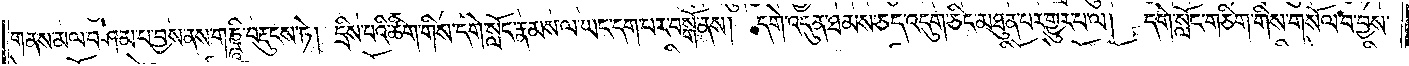གནས་མལ་བཤམ་པ་བྱས་ནས་གཎྜཱི་བརྡུངས་ཏེ། དྲིས་པའི་ཚིག་གིས་དགེ་སློང་རྣམས་ལ་ཡང་དག་པར་བསྒོ་ནས། དགེ་འདུན་ཐམས་ཅད་འདུག་ཅིང་མཐུན་པར་གྱུར་པ་ལ། དགེ་སློང་གཅིག་གིས་གསོལ་བ་བྱས་
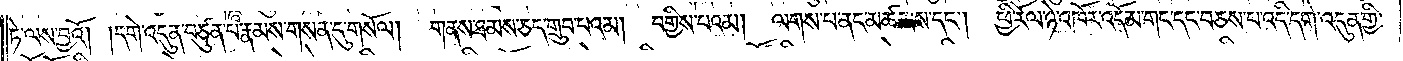ཏེ་ལས་བྱའོ། །དགེ་འདུན་བཙུན་པ་རྣམས་གསན་དུ་གསོལ། གནས་ཐམས་ཅད་གྲུབ་པའམ། བགྱིས་པའམ། ལགས་པ་ནང་མཚམས་དང༌། ཕྱི་རོལ་ཉེ་འཁོར་འདོམ་གང་དང་བཅས་པ་འདི་དགེ་འདུན་གྱི་
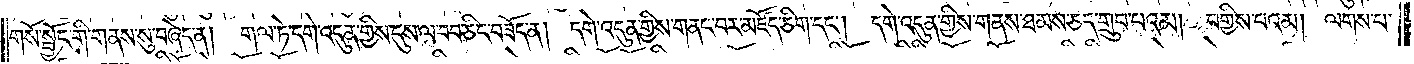གསོ་སྦྱོང་གི་གནས་སུ་བཞེད་ན། གལ་ཏེ་དགེ་འདུན་གྱིས་དུས་ལ་བབ་ཅིང་བཟོད་ན། དགེ་འདུན་གྱིས་གནང་བར་མཛོད་ཅིག་དང༌། དགེ་འདུན་གྱིས་གནས་ཐམས་ཅད་གྲུབ་པའམ། བགྱིས་པའམ། ལགས་པ་
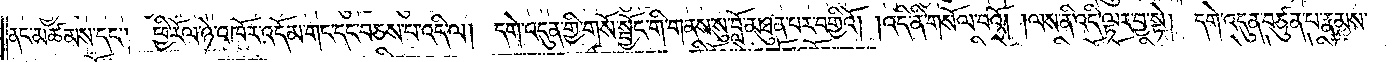ནང་མཚམས་དང༌། ཕྱི་རོལ་ཉེ་འཁོར་འདོམ་གང་དང་བཅས་པ་འདི་ལ། དགེ་འདུན་གྱི་གསོ་སྦྱོང་གི་གནས་སུ་བློ་མཐུན་པར་བགྱིའོ། །འདི་ནི་གསོལ་བའོ། །ལས་ནི་འདི་ལྟར་བྱ་སྟེ། དགེ་འདུན་བཙུན་པ་རྣམས་
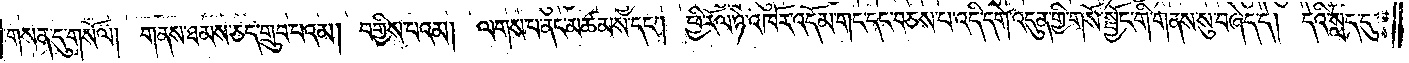གསན་དུ་གསོལ། གནས་ཐམས་ཅད་གྲུབ་པའམ། བགྱིས་པའམ། ལགས་པ་ནང་མཚམས་དང༌། ཕྱི་རོལ་ཉེ་འཁོར་འདོམ་གང་དང་བཅས་པ་འདི་དགེ་འདུན་གྱི་གསོ་སྦྱོང་གི་གནས་སུ་བཞེད་དེ། དེའི་སླད་དུ།
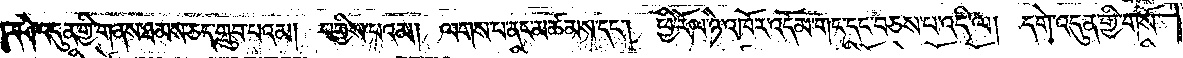དགེ་འདུན་གྱི་གནས་ཐམས་ཅད་གྲུབ་པའམ། བགྱིས་པའམ། ལགས་པ་ནང་མཚམས་དང༌། ཕྱི་རོལ་ཉེ་འཁོར་འདོམ་གང་དང་བཅས་བ་འདི་ལ། དགེ་འདུན་གྱི་གསོ་
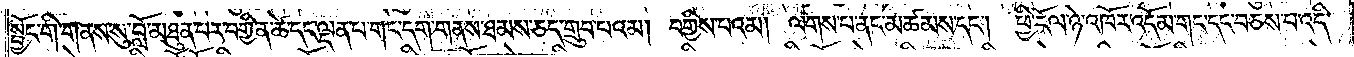སྦྱོང་གི་གནས་སུ་བློ་མཐུན་པར་བགྱི་ན་ཚེ་དང་ལྡན་པ་གང་དག་གནས་ཐམས་ཅད་གྲུབ་པའམ། བགྱིས་པའམ། ལགས་པ་ནང་མཚམས་དང༌། ཕྱི་རོལ་ཉེ་འཁོར་འདོམ་གང་དང་བཅས་པ་འདི་
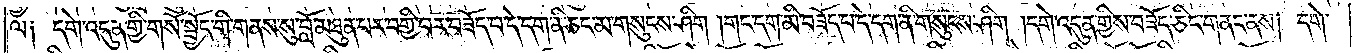ལ༑ དགེ་འདུན་གྱི་གསོ་སྦྱོང་གི་གནས་སུ་བློ་མཐུན་པར་བགྱི་བར་བཟོད་པ་དེ་དག་ནི་ཅང་མ་གསུངས་ཤིག །གང་དག་མི་བཟོད་པ་དེ་དག་ནི་གསུངས་ཤིག །དགེ་འདུན་གྱིས་བཟོད་ཅིང་གནང་ནས། དགེ་
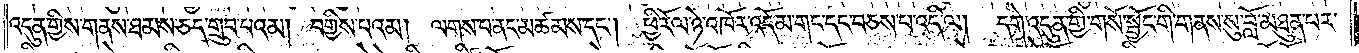འདུན་གྱིས་གནས་ཐམས་ཅད་གྲུབ་པའམ། བགྱིས་པའམ། ལགས་པ་ནང་མཚམས་དང༌། ཕྱི་རོལ་ཉེ་འཁོར་འདོམ་གང་དང་བཅས་པ་འདི་ལ། དགེ་འདུན་གྱི་གསོ་སྦྱོང་གི་གནས་སུ་བློ་མཐུན་པར་
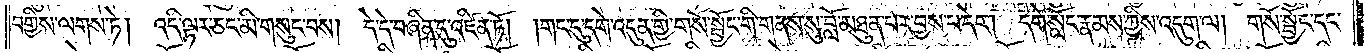བགྱིས་ལགས་ཏེ། འདི་ལྟར་ཅང་མི་གསུང་བས། དེ་དེ་བཞིན་དུ་འཛིན་ཏོ། །གང་དུ་དགེ་འདུན་གྱི་གསོ་སྦྱོང་གི་གནས་སུ་བློ་མཐུན་པར་བྱས་པ་དེར། དགེ་སློང་རྣམས་ཀྱིས་འདུག་ལ། གསོ་སྦྱོང་དང་
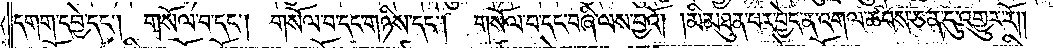དགག་དབྱེ་དང༌། གསོལ་བ་དང༌། གསོལ་བ་དང་གཉིས་དང༌། གསོལ་བ་དང་བཞི་ལས་བྱའོ། །མི་མཐུན་པར་བྱེད་ན་འགལ་ཚབས་ཅན་དུ་འགྱུར་རོ༎<gap>༎འདུལ་བ་གཞི།བམ་པོ་བཅུ་གཉིས་
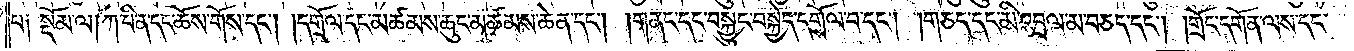པ༑ སྡོམ་ལ། ཀ་པི་ན་དང་ཆོས་གོས་དང༌། །དགྲོལ་དང་མཚམས་ཆུང་མཚམས་ཆེན་དང༌། །གནང་དང་བསྐྱུང་བསྐྱེད་དགྲོལ་བ་དང༌། །གཅད་དང་མི་འབྲལ་མ་བཅད་དང༌། །གྲོང་དགོན་ལས་དང་
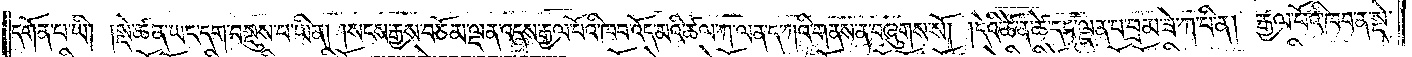དགོན་པ་ཡི། །སྡེ་ཚན་ཡང་དག་བསྡུས་པ་ཡིན། །སངས་རྒྱས་བཅོམ་ལྡན་འདས་རྒྱལ་པོའི་ཁབ་འོད་མའི་ཚལ་ཀ་ལན་ད་ཀའི་གནས་ན་བཞུགས་སོ། །དེའི་ཚེ་ན་ཚེ་དང་ལྡན་པ་བྲམ་ཟེ་ཀ་པི་ན། རྒྱལ་པོའི་ཁབ་ན་སྡེ་
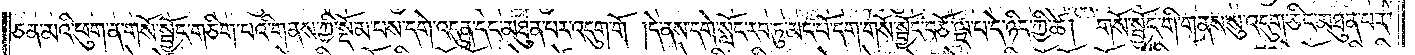ཅན་མའི་ཕུག་ན་གསོ་སྦྱོང་གཅིག་པའི་གནས་ཀྱི་སྡོམ་པས་དགེ་འདུན་དང་མཐུན་པར་འདུག་གོ །དེ་ནས་དགེ་སློང་རབ་ཏུ་མང་པོ་དག་གསོ་སྦྱོང་བཅོ་ལྔ་པ་དེ་ཉིད་ཀྱི་ཚེ། གསོ་སྦྱོང་གི་གནས་སུ་འདུག་ཅིང་མཐུན་པར་
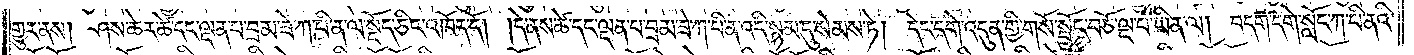གྱུར་ནས། ཤས་ཆེར་ཚེ་དང་ལྡན་པ་བྲམ་ཟེ་ཀ་པི་ན་ལ་སྡོད་ཅིང་འཁོད་དོ། །དེ་ནས་ཚེ་དང་ལྡན་པ་བྲམ་ཟེ་ཀ་པི་ན་འདི་སྙམ་དུ་སེམས་ཏེ། དེང་དགེ་འདུན་གྱི་གསོ་སྦྱོང་བཅོ་ལྔ་པ་ཡིན་ལ། བདག་དགེ་སློང་ཀ་པི་ནའི་
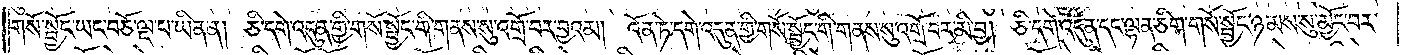གསོ་སྦྱོང་ཡང་བཅོ་ལྔ་པ་ཡིན་ན། ཅི་དགེ་འདུན་གྱི་གསོ་སྦྱོང་གི་གནས་སུ་འགྲོ་བར་བྱའམ། འོན་ཏེ་དགེ་འདུན་གྱི་གསོ་སྦྱོང་གི་གནས་སུ་འགྲོ་བ་མི་བྱ། ཅི་དགེ་འདུན་དང་ལྷན་ཅིག་གསོ་སྦྱོང་ཉམས་སུ་མྱོང་བར་
